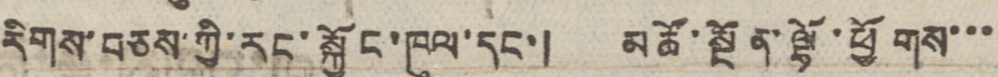རིགས་བཅས་ཀྱི་རང་སྐྱོང་ཁུལ་དང་། མཚོ་སྔོན་ལྷོ་ཕྱོགས་་་
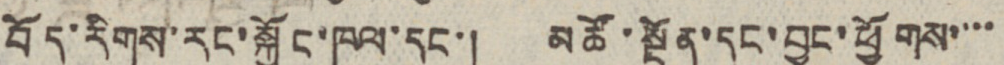བོད་རིགས་རང་སྐྱོང་ཁུལ་དང་། མཚོ་སྔོན་དང་བྱང་ཕྱོགས་་་་
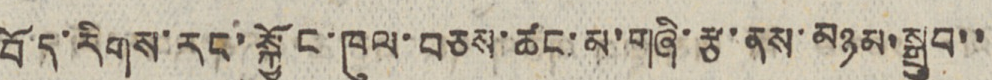བོད་རིགས་རང་སྐྱོང་ཁུལ་བཅས་ཚང་མ་གཞི་རྩ་ནས་མཉམ་སྒྲུབ་་
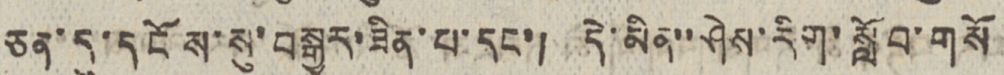ཅན་དུ་དངོས་སུ་བསྒྱུར་ཟིན་པ་དང་། དེ་མིན་་ཤེས་རིག་སློབ་གསོ
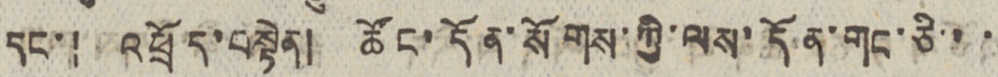དང་། འཕྲོད་བསྟེན། ཚོང་དོན་སོགས་ཀྱི་ལས་དོན་གང་ཅི་་་
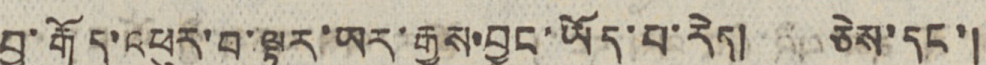བྱ་རྒོད་འཕུར་བ་ལྟར་ཡར་རྒྱས་བྱུང་ཡོད་པ་རེད། ཅེས་དང་།
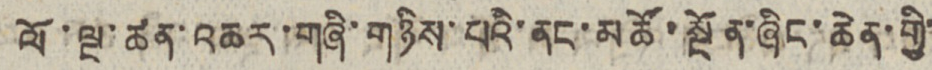ལོ་ལྔ་ཚན་འཆར་གཞི་གཉིས་པའི་ནང་མཚོ་སྔོན་ཞིང་ཆེན་གྱི་
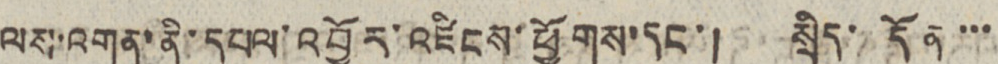ལས་འགན་ནི་དཔལ་འབྱོར་འཛིངས་ཕྱོགས་དང་། སྲིད་དོན་་་
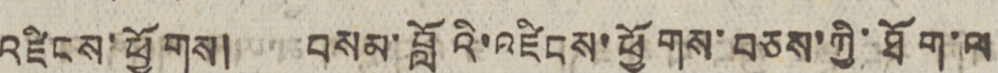འཛིངས་ཕྱོགས། བསམ་བློའི་འཛིངས་ཕྱོགས་བཅས་ཀྱི་ཐོག་ལ
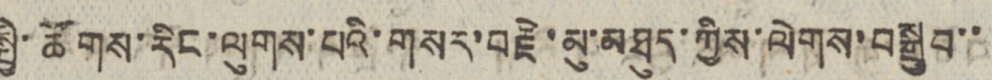སྤྱི་ཚོགས་རིང་ལུགས་པའི་གསར་བརྗེ་མུ་མཐུད་ཀྱིས་ལེགས་བསྒྲུབ་་
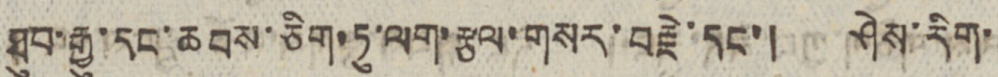ཐུབ་རྒྱུ་དང་ཆབས་ཅིག་ཏུ་ལག་རྩལ་གསར་བརྗེ་དང། ཤེས་རིག་
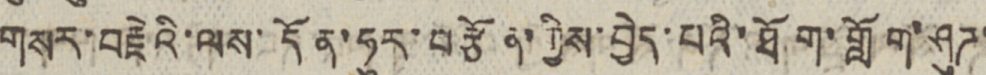གསར་བརྗེའི་ལས་དོན་ཧུར་བརྩོན་གྱིས་བྱེད་པའི་ཐོག་གློག་ཤུཊ་
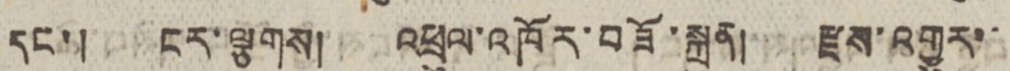དང་། ངར་ལྕགས། འཕྲུལ་འཁོར་བཟོ་སྐྲུན། རྫས་འགྱུར་་
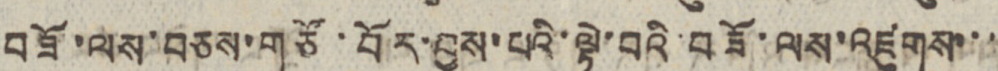བཟོ་ལས་བཅས་གཙོ་བོར་བྱས་པའི་ལྟེ་བའི་བཟོ་ལས་འཛུགས་་་
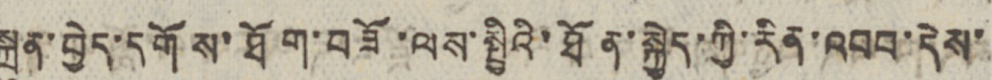སྐྲུན་བྱེད་དགོས་ཐོག་བཟོ་ལས་སྤྱིའི་ཐོན་སྐྱེད་ཀྱི་རིན་འབབ་དེས་
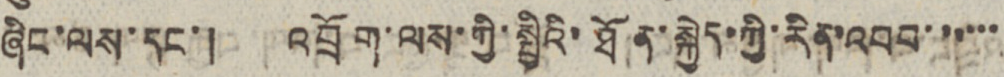ཞིང་ལས་དང་། འབྲོག་ལས་ཀྱི་སྤྱིའི་ཐོན་སྐྱེད་ཀྱི་རིན་འབབ་་་་་་
